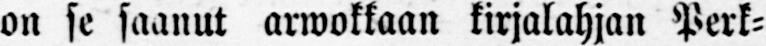on se saanut arwokkaan kirjalahjan Perk-
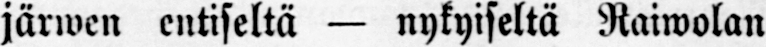järwen entiseltä — nykyiseltä Raiwolan
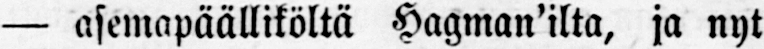— asemapäälliköltä Hagman’ilta, ja nyt
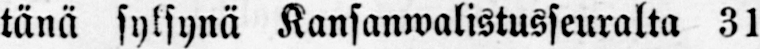tänä syksynä Kansanwalistusseuralta 31
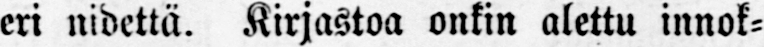eri nidettä. Kirjastoa onkin alettu innok-
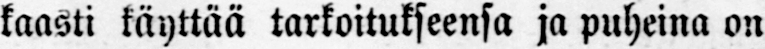kaasti käyttää tarkoitukseensa ja puheina on
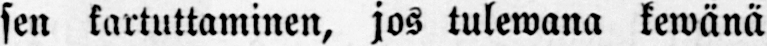sen kartuttaminen, jos tulewana kewänä
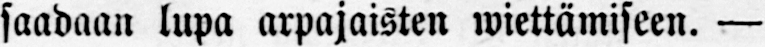saadaan lupa arpajaisten wiettämiseen. —
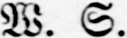W. S.
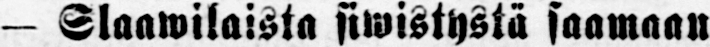— Slaawilaista siwistystä saamaan
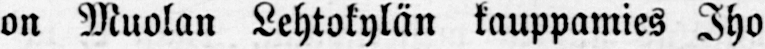on Muolan Lehtokylän kauppamies Iho
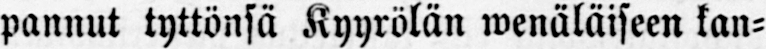pannut tyttönsä Kyyrölän wenäläiseen kan-
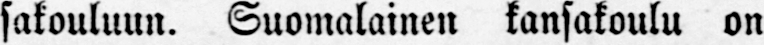sakouluun. Suomalainen kansakoulu on
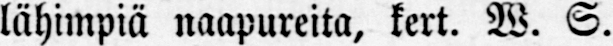lähimpiä naapureita, kert. W. S.
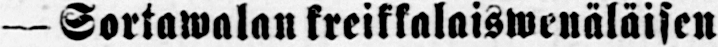— Sortawalan kreikkalaiswenäläisen
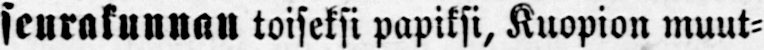seurakunnan toiseksi papiksi, Kuopion muut-
